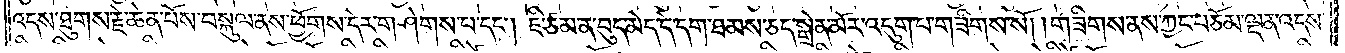འདས་ཐུགས་རྗེ་ཆེན་པོས་བསྐུལ་ནས་ཕྱོགས་དེར་གཤེགས་པ་དང༌། ཇི་ཙམ་ན་བུད་མེད་དེ་དག་ཐམས་ཅད་སྒྲེན་མོར་འདུག་པ་གཟིགས་སོ། །གཟིགས་ནས་ཀྱང་བཅོམ་ལྡན་འདས་
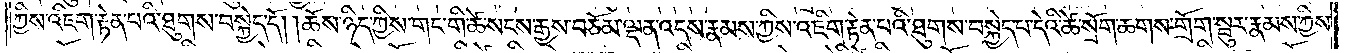ཀྱིས་འཇིག་རྟེན་པའི་ཐུགས་བསྐྱེད་དོ། །ཆོས་ཉིད་ཀྱིས་གང་གི་ཚེ་སངས་རྒྱས་བཅོམ་ལྡན་འདས་རྣམས་ཀྱིས་འཇིག་རྟེན་པའི་ཐུགས་བསྐྱེད་པ་དེའི་ཚེ་སྲོག་ཆགས་གྲོག་སྦུར་རྣམས་ཀྱིས་
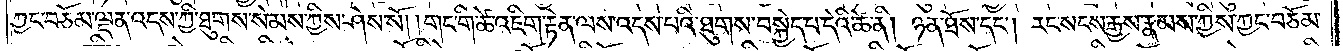ཀྱང་བཅོམ་ལྡན་འདས་ཀྱི་ཐུགས་སེམས་ཀྱིས་ཤེས་སོ། །གང་གི་ཚེ་འཇིག་རྟེན་ལས་འདས་པའི་ཐུགས་བསྐྱེད་པ་དེའི་ཚེ་ནི། ཉན་ཐོས་དང༌། རང་སངས་རྒྱས་རྣམས་ཀྱིས་ཀྱང་བཅོམ་
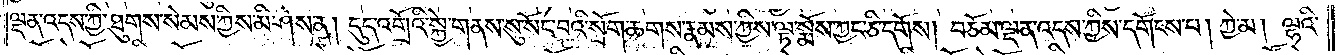ལྡན་འདས་ཀྱི་ཐུགས་སེམས་ཀྱིས་མི་ཤེས་ན། དུད་འགྲོའི་སྐྱེ་གནས་སུ་སོང་བའི་སྲོག་ཆགས་རྣམས་ཀྱིས་ལྟ་སྨོས་ཀྱང་ཅི་དགོས། བཅོམ་ལྡན་འདས་ཀྱིས་དགོངས་པ། ཀྱེ་མ། ལྷའི་
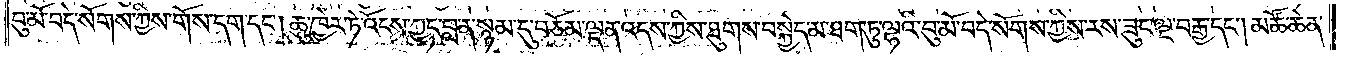བུ་མོ་བདེ་སོགས་ཀྱིས་གོས་དག་དང༌། ཆུ་ཁྱེར་ཏེ་འོངས་ཀྱང་བླ་ན་སྙམ་དུ་བཅོམ་ལྡན་འདས་ཀྱིས་ཐུགས་བསྐྱེད་མ་ཐག་ཏུ་ལྷའི་བུ་མོ་བདེ་སོགས་ཀྱིས་རས་ཟུང་ལྔ་བརྒྱ་དང༌། མཚོ་ཆེན་
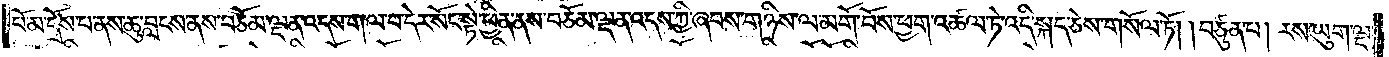པོ་མ་དྲོས་པ་ནས་ཆུ་བླངས་ནས་བཅོམ་ལྡན་འདས་ག་ལ་བ་དེར་སོང་སྟེ་ཕྱིན་ནས་བཅོམ་ལྡན་འདས་ཀྱི་ཞབས་གཉིས་ལ་མགོ་བོས་ཕྱག་འཚལ་ཏེ་འདི་སྐད་ཅེས་གསོལ་ཏོ། །བཙུན་པ། རས་ཡུག་ལྔ་
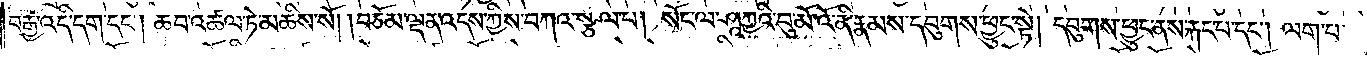བརྒྱ་འདི་དག་དང༌། ཆབ་འཚལ་ཏེ་མཆིས་སོ། །བཅོམ་ལྡན་འདས་ཀྱིས་བཀའ་སྩལ་པ། སོང་ལ་ཤཱཀྱའི་བུ་མོ་འོ་ནི་རྣམས་དབུགས་ཕྱུང་སྟེ། དབུགས་ཕྱུང་ནས་རྐང་པ་དང༌། ལག་པ་
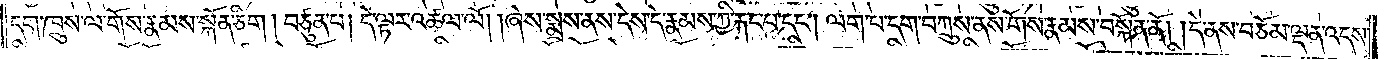དག་ཁྲུས་ལ་གོས་རྣམས་སྐོན་ཅིག །བཙུན་པ། དེ་ལྟར་འཚལ་ལོ། །ཞེས་སྨྲས་ནས་དེས་དེ་རྣམས་ཀྱི་རྐང་པ་དང༌། ལག་པ་དག་བཀྲུས་ནས་གོས་རྣམས་བསྐོན་ནོ། །དེ་ནས་བཅོམ་ལྡན་འདས་
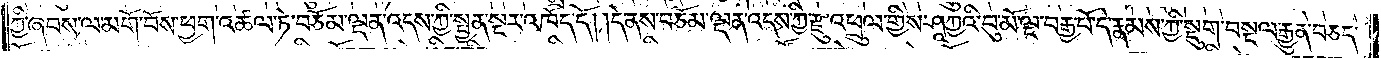ཀྱི་ཞབས་ལ་མགོ་བོས་ཕྱག་འཚལ་ཏེ་བཅོམ་ལྡན་འདས་ཀྱི་སྤྱན་སྔར་འཁོད་དོ། །དེ་ནས་བཅོམ་ལྡན་འདས་ཀྱི་རྫུ་འཕྲུལ་གྱིས་ཤཱཀྱའི་བུ་མོ་ལྔ་བརྒྱ་པོ་དེ་རྣམས་ཀྱི་སྡུག་བསྔལ་རྒྱུན་བཅད་
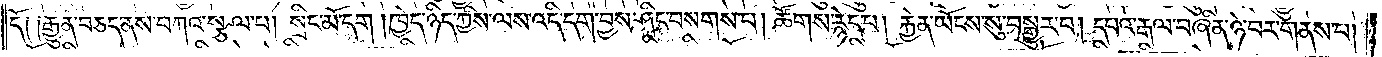དོ༑ ༑རྒྱུན་བཅད་ནས་བཀའ་སྩལ་པ། སྲིང་མོ་དག །ཁྱེད་ཉིད་ཀྱིས་ལས་འདི་དག་བྱས་ཤིང་བསགས་པ། ཚོགས་རྙེད་པ། རྐྱེན་ཡོངས་སུ་བསྒྱུར་བ། དཔའ་རྒལ་བཞིན་ཉེ་བར་གནས་པ།
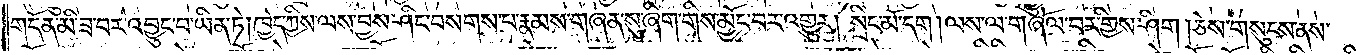གདོན་མི་ཟ་བར་འབྱུང་བ་ཡིན་ཏེ། ཁྱེད་ཀྱིས་ལས་བྱས་ཤིང་བསགས་པ་རྣམས་གཞན་སུ་ཞིག་གིས་མྱོང་བར་འགྱུར། སྲིང་མོ་དག །ལས་ལ་གཞོལ་བར་གྱིས་ཤིག །ཅེས་གསུངས་ནས་
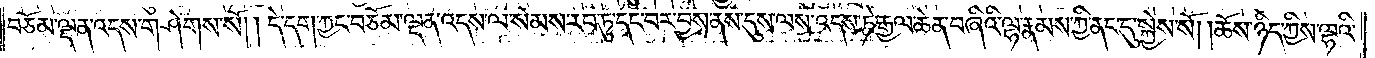བཅོམ་ལྡན་འདས་གཤེགས་སོ། །དེ་དག་ཀྱང་བཅོམ་ལྡན་འདས་ལ་སེམས་རབ་ཏུ་དང་བར་བྱས་ནས་དུས་ལས་འདས་ཏེ་རྒྱལ་ཆེན་བཞིའི་ལྷ་རྣམས་ཀྱི་ནང་དུ་སྐྱེས་སོ། །ཆོས་ཉིད་ཀྱིས་ལྷའི་
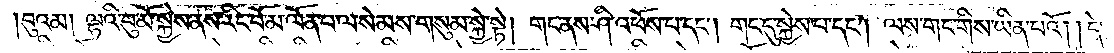བུའམ། ལྷའི་བུ་མོ་སྐྱེས་ནས་རིང་པོ་མ་ལོན་པ་ལ་སེམས་གསུམ་སྐྱེ་སྟེ། གང་ནས་ཤི་འཕོས་པ་དང༌། གང་དུ་སྐྱེས་པ་དང༌། ལས་གང་གིས་ཡིན་པའོ། །དེ་
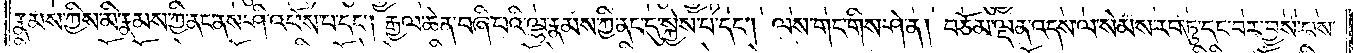རྣམས་ཀྱིས་མི་རྣམས་ཀྱི་ནང་ནས་ཤི་འཕོས་པ་དང༌། རྒྱལ་ཆེན་བཞི་པའི་ལྷ་རྣམས་ཀྱི་ནང་དུ་སྐྱེས་པ་དང༌། ལས་གང་གིས་ཤེ་ན། བཅོམ་ལྡན་འདས་ལ་སེམས་རབ་ཏུ་དང་བར་བྱས་པས་
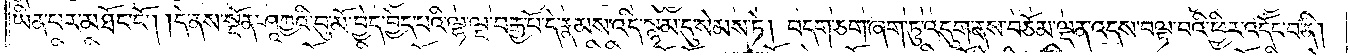ཡིན་པར་མཐོང་ངོ༌། །དེ་ནས་སྔོན་ཤཱཀྱའི་བུ་མོ་བྱེད་བྱེད་པའི་ལྷ་ལྔ་བརྒྱ་པོ་དེ་རྣམས་འདི་སྙམ་དུ་སེམས་ཏེ། བདག་ཅག་ཞག་ཏུ་འདུག་ནས་བཅོམ་ལྡན་འདས་བལྟ་བའི་ཕྱིར་འདོང་བ་ནི།
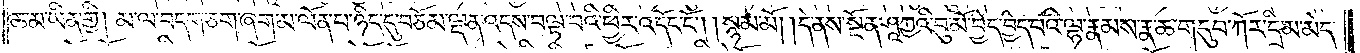ཆ་མ་ཡིན་གྱི། མ་ལ་བདག་ཅག་ཞག་མ་ལོན་པ་ཉིད་དུ་བཅོམ་ལྡན་འདས་བལྟ་བའི་ཕྱིར་འདོང་ངོ༌། །སྙམ་མོ། །དེ་ནས་སྔོན་ཤཱཀྱའི་བུ་མོ་བྱེད་བྱེད་པའི་ལྷ་རྣམས་རྣ་ཆ་གདུབ་ཀོར་དྲི་མ་མེད་
